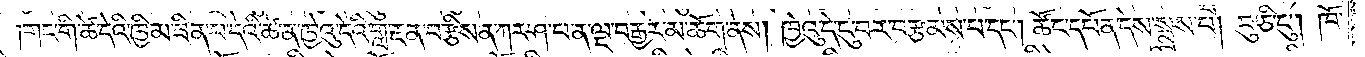ཤིག ༑གང་གི་ཚེ་དེའི་ཁྱིམ་ཟིན་པ་དེའི་ཚེ་ན་ཁྱེའུ་དེའི་གླ་རྔན་བརྩིས་ན་ཀར་ཤ་པ་ན་ལྔ་བརྒྱར་མ་ཆོག་ནས། ཁྱེའུ་དེ་ངུ་བར་བརྩམས་པ་དང༌། ཚོང་དཔོན་དེས་སྨྲས་པ། བུ་ཅི་ངུ༌། ཁོ་
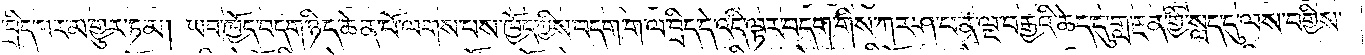བོས་བྲིད་པར་མ་གྱུར་ཏམ། ཡབ་ཁྱོད་བདག་ཉིད་ཆེན་པོ་ལགས་པས་ཁྱོད་ཀྱིས་བདག་ག་ལ་བྲིད་དེ་འདི་ལྟར་བདག་གིས་ཀར་ཤ་པ་ན་ལྔ་བརྒྱའི་ཆེད་དུ་གླ་རྔན་གྱི་སླད་དུ་ལས་བགྱིས་
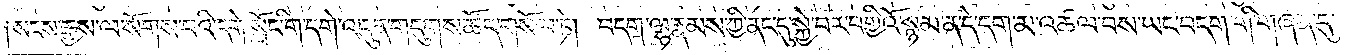། སངས་རྒྱས་ལ་སོགས་པའི་དགེ་སློང་གི་དགེ་འདུན་གདུགས་ཚོད་གསོལ་ཏེ། བདག་ལྷ་རྣམས་ཀྱི་ནང་དུ་སྐྱེ་བར་བགྱིའོ་སྙམ་ན་དེ་དག་མ་འཚལ་བས་ཡང་བདག་གི་གཞན་དུ་
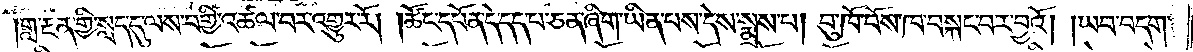གླ་རྔན་གྱི་སླད་དུ་ལས་བགྱི་འཚལ་བར་འགྱུར་རོ། །ཚོང་དཔོན་དེ་དད་པ་ཅན་ཞིག་ཡིན་པས་དེས་སྨྲས་པ། བུ་ཁོ་བོས་ཁ་བསྐང་བར་བྱའོ། །ཡབ་བདག་
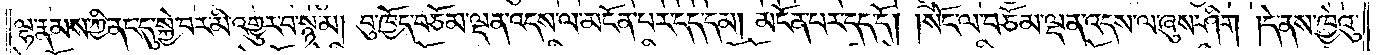ལྷ་རྣམས་ཀྱི་ནང་དུ་སྐྱ་བར་མི་འགྱུར་བ་སྙམ། བུ་ཁྱོད་བཅོམ་ལྡན་འདས་ལ་མངོན་པར་དད་དམ། མངོན་པར་དད་དོ། །སོང་ལ་བཅོམ་ལྡན་འདས་ལ་ཞུས་ཤིག །དེ་ནས་ཁྱེའུ་
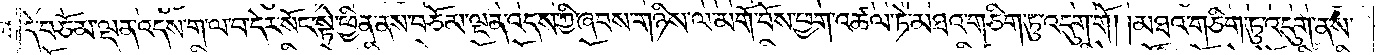དེ་བཅོམ་ལྡན་འདས་ག་ལ་བ་དེར་སོང་སྟེ་ཕྱིན་ནས་བཅོམ་ལྡན་འདས་ཀྱི་ཞབས་གཉིས་ལ་མགོ་བོས་ཕྱག་འཚལ་ཏེ་མཐའ་གཅིག་ཏུ་འདུག་གོ། །མཐའ་གཅིག་ཏུ་འདུག་ནས་
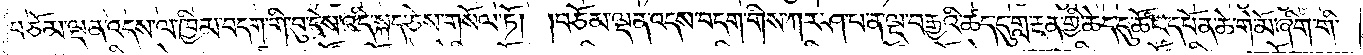བཅོམ་ལྡན་འདས་ལ་ཁྱིམ་བདག་གི་བུ་དེས་འདི་སྐད་ཅེས་གསོལ་ཏོ། །བཅོམ་ལྡན་འདས་བདག་གིས་ཀར་ཤ་པ་ན་ལྔ་བརྒྱའི་ཚད་དུ་གླ་རྔན་གྱི་ཆེད་དུ་ཚོང་དཔོན་ཆེ་གེ་མོ་ཞིག་གི་
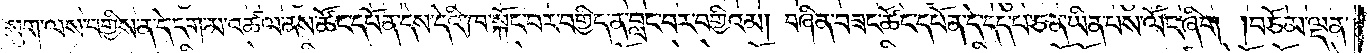སུག་ལས་བགྱིས་ན་དེ་དག་མ་འཚལ་ནས་ཚོང་དཔོན་དེས་དེའི་ཁ་སྐོང་བར་བགྱིད་ན་བླང་བར་བགྱིའམ། བཞིན་བཟང་ཚོང་དཔོན་དེ་དད་པ་ཅན་ཡིན་པས་ལོང་ཞིག །བཅོམ་ལྡན་
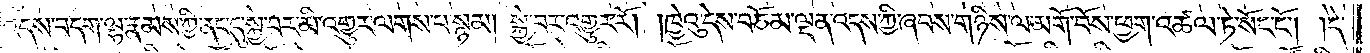འདས་བདག་ལྷ་རྣམས་ཀྱི་ནང་དུ་སྐྱེ་བར་མི་འགྱུར་ལགས་པ་སྙམ། སྐྱེ་བར་འགྱུར་རོ། །ཁྱེའུ་དེས་བཅོམ་ལྡན་འདས་ཀྱི་ཞབས་གཉིས་ལ་མགོ་བོས་ཕྱག་འཚལ་ཏེ་སོང་ངོ༌། །དེ་
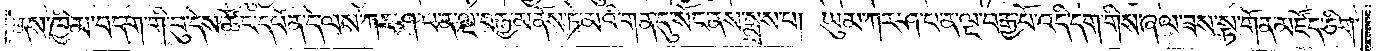ནས་ཁྱིམ་བདག་གི་བུ་དེས་ཚོང་དཔོན་དེ་ལས་ཀར་ཤ་པ་ན་ལྔ་བརྒྱ་མནོས་ཏེ་མའི་གན་དུ་སོང་ནས་སྨྲས་པ། ཡུམ་ཀར་ཤ་པ་ན་ལྔ་བརྒྱ་པོ་འདི་དག་གིས་ཞལ་ཟས་སྟ་གོན་མཛོད་ཅིག་
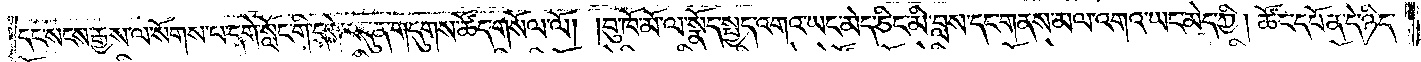དང་སངས་རྒྱས་ལ་སོགས་པ་དགེ་སློང་གི་དགེ་འདུན་གདུགས་ཚོད་གསོལ་ལོ། །བུ་ཁོ་མོ་ལ་སྣོད་སྤྱད་འགའ་ཡང་མེད་ཅིང་མི་བླས་དང་གནས་མལ་འགའ་ཡང་མེད་ཀྱི། ཚོང་དཔོན་དེ་ཉིད་
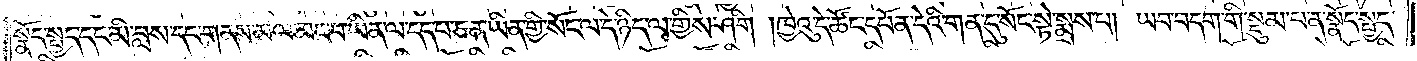སྣོད་སྤྱད་དང་མི་བླས་དང་གནས་མལ་མང་བ་ཡིན་ལ་དད་པ་ཅན་ཡིན་གྱི་སོང་ལ་དེ་ཉིད་ལྭ་གྱིས་ཤིག །ཁྱེའུ་དེ་ཚོང་དཔོན་དེའི་གན་དུ་སོང་སྟེ་སྨྲས་པ། ཡབ་བདག་གི་སྡུམ་པ་ན་སྣོད་སྤྱད་
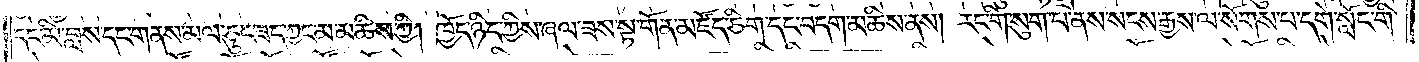དང་མི་བླས་དང་གནས་མལ་ཅུང་ཟད་ཀྱང་མ་མཆིས་ཀྱི། ཁྱོད་ཉིད་ཀྱིས་ཞལ་ཟས་སྟ་གོན་མཛོད་ཅིག་དང་བདག་མཆིས་ནས། རང་གི་སུག་པ་ནས་སངས་རྒྱས་ལ་སོགས་པ་དགེ་སློང་གི་
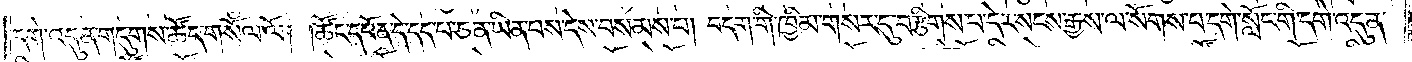དགེ་འདུན་གདུགས་ཚོད་གསོལ་ལོ། །ཚོང་དཔོན་དེ་དད་པ་ཅན་ཡིན་པས་དེས་བསམས་པ། བདག་གི་ཁྱིམ་གསར་དུ་བརྩིགས་པ་དེར་སངས་རྒྱས་ལ་སོགས་པ་དགེ་སློང་གི་དགེ་འདུན་
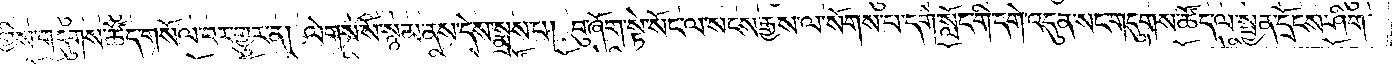གྱིས་གདུགས་ཚོད་གསོལ་བར་གྱུར་ན། ལེགས་སོ་སྙམ་ནས་དེས་སྨྲས་པ། བུ་ཞོག་སྟེ་སོང་ལ་སངས་རྒྱས་ལ་སོགས་པ་དགེ་སློང་གི་དགེ་འདུན་སང་གདུགས་ཚོད་ལ་སྤྱན་དྲོངས་ཤིག་
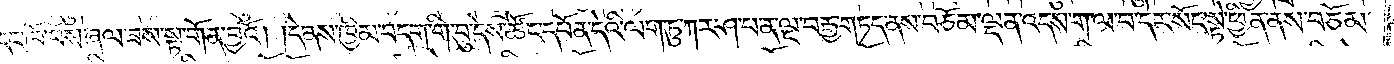དང་ཁོ་བོས་ཞལ་ཟས་སྟ་གོན་བྱའོ། །དེ་ནས་ཁྱིམ་བདག་གི་བུ་དེས་ཚོང་དཔོན་དེའི་ལག་ཏུ་ཀར་ཤ་པ་ན་ལྔ་བརྒྱ་གཏད་ནས་བཅོམ་ལྡན་འདས་ག་ལ་བ་དེར་སོང་སྟེ་ཕྱིན་ནས་བཅོམ་
